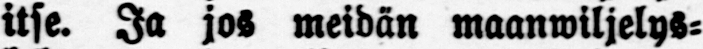itse. Ja jos meidän maanwiljelys-
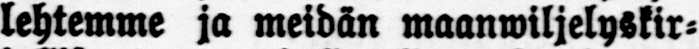lehtemme ja meidän maanwiljelyrkir-
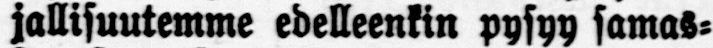jallisuutemme edelleenkin pysyy samas-
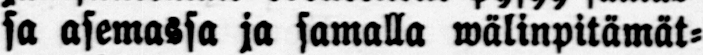sa asemassa ja samalla wälinpitämät-
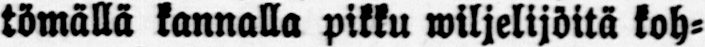tömällä kannalla pikku wiljelijöitä koh-
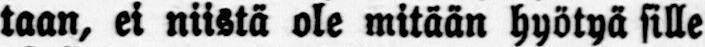taan, ei niistä ole mitään hyötyä sille
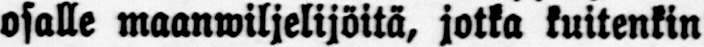osalle maanwiljelijöitä, jotka kuitenkin
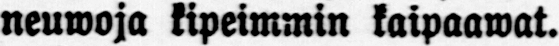neuwoja kipeimmin kaipaawat.
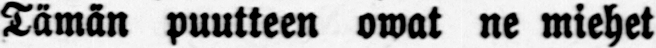Tämän puutteen owat ne miehet
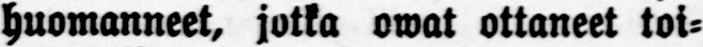huomanneet, jotka owat ottaneet toi-
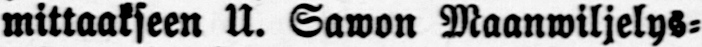mittaakseen U. Sawon Maanwiljelys-
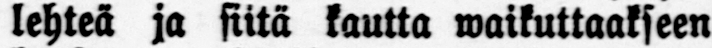lehteä ja siitä kautta waikuttaakseen
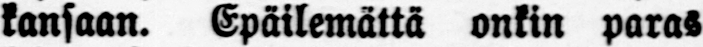kansaan. Epäilemättä onkin paras
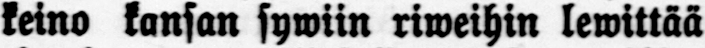keino kansan sywiin riweihin lewittää
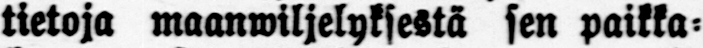tietoja maanwiljelyksestä sen paikka-
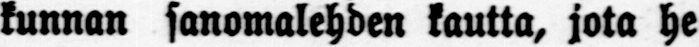kunnan sanomalehden kautta, jota he
